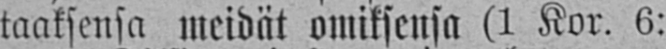taaksensa meidät omiksensa (1 Kor. 6:
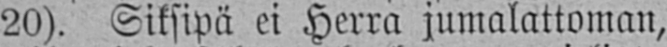20). Siksipä ei Herra jumalattoman,
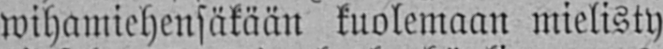wihamiehensäkään kuolemaan mielisty
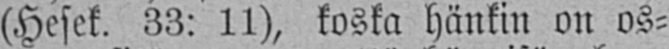(Hesek. 33: 11), koska hänkin on os-
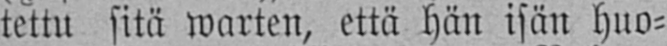tettu sitä warten, että hän isän huo-
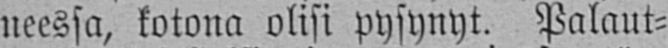neessa, kotona olisi pysynyt. Palaut-
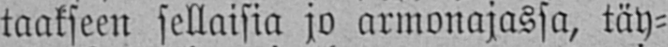taakseen sellaisia jo armonajassa, täy-
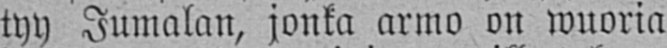tyy Jumalan, jonka armo on wuoria
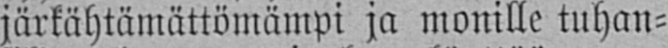järkähtämättömämpi ja monille tuhan-
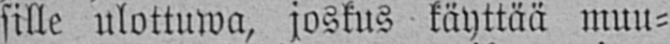sille ulottuwa, joskus käyttää muu-
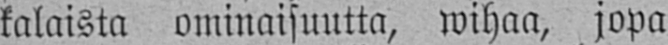kalaista ominaisuutta, wihaa, jopa
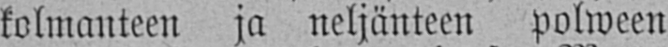kolmanteen ja neljänteen polween
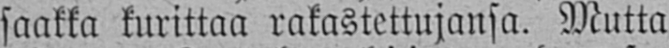saakka kurittaa rakastettujansa. Mutta
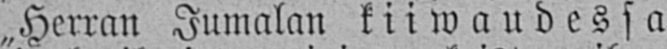„Herran Jumalan kiiwaudessa
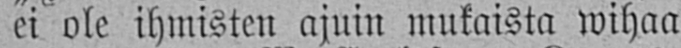ei oli ihmisten ajuin mukaista wihaa
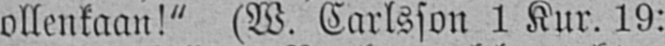ollenkaan!" (W. Carlsson 1 Kur. 19:
